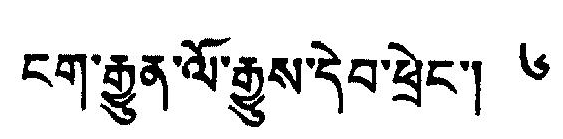ངག་རྒྱུན་ལོ་རྒྱུས་དེབ་ཕྲེང་། ༦
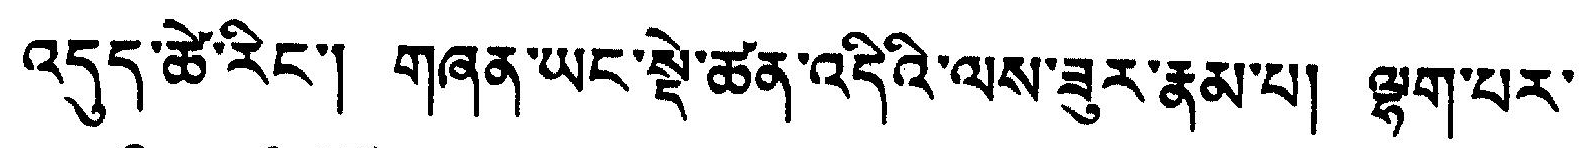འདུད་ཚེ་རིང་། གཞན་ཡང་སྡེ་ཚན་འདིའི་ལས་ཟུར་རྣམ་པ། ལྷག་པར་
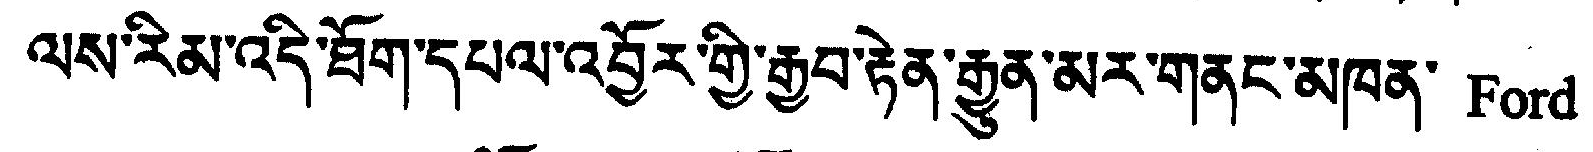ལས་རིམ་འདི་ཐོག་དཔལ་འབྱོར་གྱི་རྒྱབ་རྟེན་རྒྱུན་མར་གནང་མཁན་ Ford
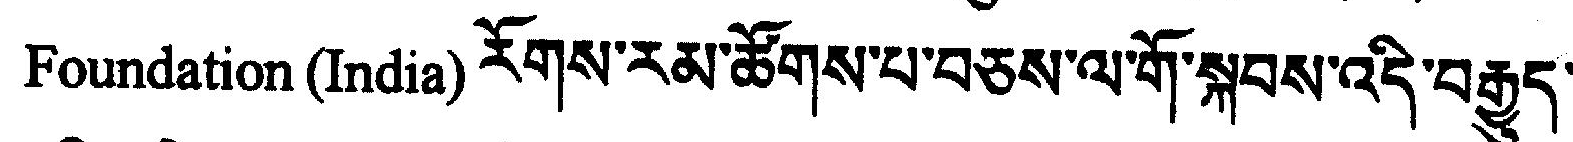Foundation (India) རོགས་རམ་ཚོགས་པ་བཅས་ལ་གོ་སྐབས་འདི་བརྒྱུད་
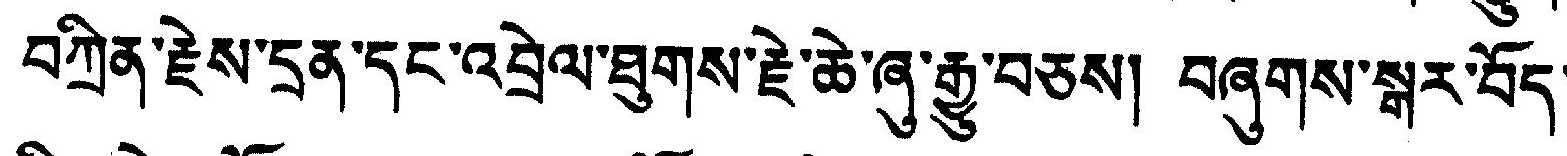བཀྲིན་རྗེས་དྲན་དང་འབྲེལ་ཐུགས་རྗེ་ཆེ་ཞུ་རྒྱུ་བཅས། བཞུགས་སྒར་བོད་
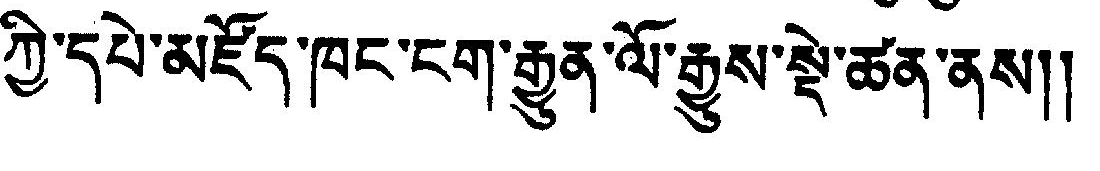ཀྱི་དཔེ་མཛོད་ཁང་ངག་རྒྱུན་ལོ་རྒྱུས་སྡེ་ཚན་ནས༎
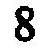8
